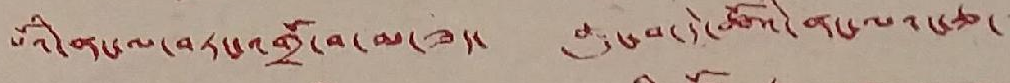པོའི་ནང་ལ་བཏང་འགྲོ་བ་མ་ཟད་ ཆུང་བ་དེ་ཚོའི་ནང་ལའང་ཅ་་་་
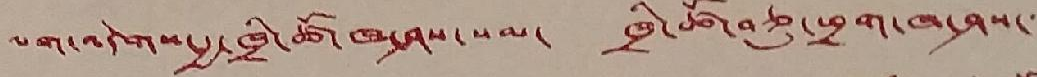ལག་འདེགས་རྒྱ་ཁྲི་ཚོ་ཁ་ཤས་སམ་ ཁྲི་ཚོ་བཅུ་ཕྲག་ཁ་ཤས་་་
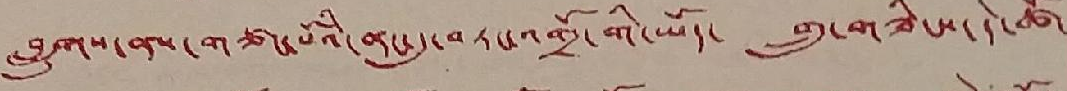བླུགས་ནས་གཙང་པོའི་ནང་དུ་བཏང་འགྲོ་གི་ཡོད་ གྲུ་གཟིངས་དེ་ཚོ་
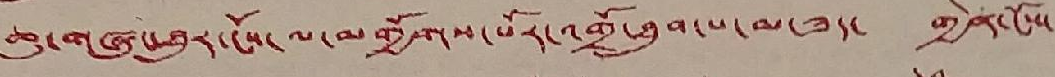ཆུ་གཞུང་ཐུར་ངོས་ལ་མགྱོགས་པོར་འགྲོ་ཐུབ་པ་མ་ཟད་ གྱེན་ངོས་
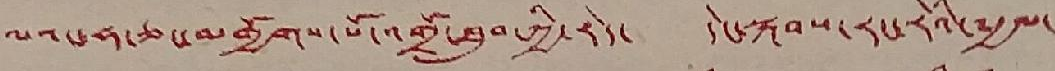ལའང་ཧ་ཅང་མགྱོགས་པོ་འགྲོ་ཐུབ་ཀྱི་རེད་ དེང་སྐབས་རང་རེའི་༸རྒྱལ་
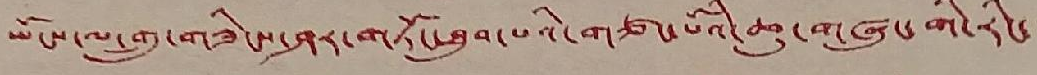ཡོངས་ལ་གྲུ་གཟིངས་ཤར་གཏོང་ཐུབ་པའི་ཆུ་གཞུང་གི་རིང་་
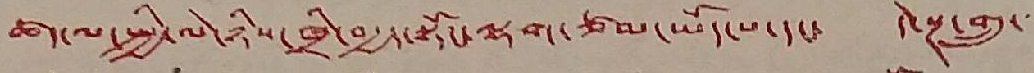ཚད་ལ་སྤྱི་ལེ་ཉིས་ཁྲི་བརྒྱད་སྟོང་ལྷག་ཙམ་ཡོད་པ་དང་ དེ་སྔ་གྲུ་་་
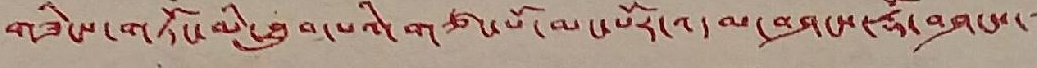གཟིངས་གཏོང་མི་ཐུབ་པའི་གཙང་པོ་མང་པོར་འདམ་བཤངས་རྡོ་བཤངས་་
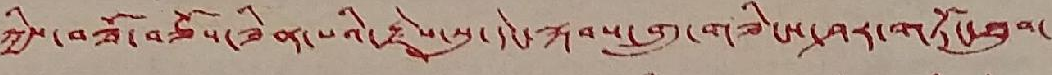ཀྱིས་བཟོ་བཅོས་ཟིན་པའི་རྗེས་སུ་དེང་སྐབས་གྲུ་གཟིངས་ཤར་གཏོང་ཐུབ་
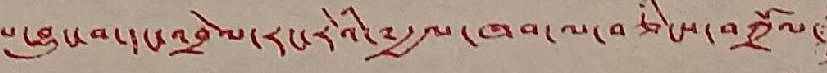པ་བྱུང་བ་དང་འབྲེལ་རང་རེའི་༸རྒྱལ་ཁབ་ལ་བཅིངས་བཀྲོལ་
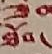ཐོབ་
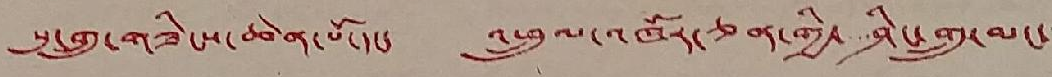སུ་གྲུ་གཟིངས་ཆེན་པོ་དང་ འཕྲུལ་འཁོར་ཅན་གྱི་ཤིང་གྲུ་མང་་
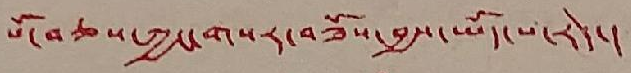པོ་བཅས་ཀྱང་གསར་བཟོས་བྱས་ཡོད་པ་རེད་།
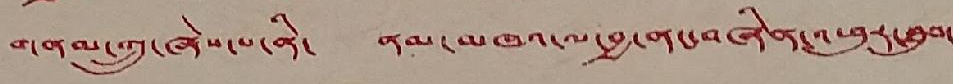གནམ་གྲུ་ཞེས་པ་ནི་ ནམ་མཁའ་ལ་བྱ་ནང་བཞིན་འཕུར་ཐུབ་
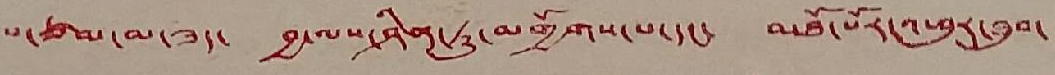པ་ཙམ་མ་ཟད་ བྱ་ལས་ཤིན་ཏུ་མགྱོགས་པ་དང་ མཐོ་པོར་འཕུར་ཐུབ་
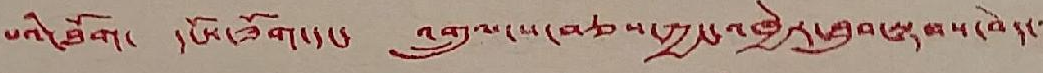པའི་ཐོག་ དངོས་ཟོག་དང་ འགྲུལ་པ་བཅས་ཀྱང་འཁྱེར་ཐུབ་སྟབས་བེད་་་
